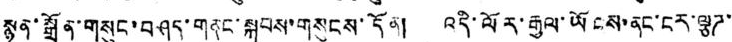སྙན་སྒྲོན་གསུང་བཤད་གནང་སྐབས་གསུངས་དོན། འདི་ལོར་རྒྱལ་ཡོངས་ནང་ངར་ལྕཌ་
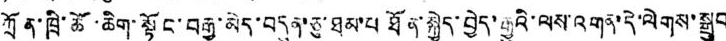ཀྲོན་ཁྲི་ཚོ་ཆིག་སྟོང་བརྒྱ་མེད་བདུན་ཅུ་ཐམ་པ ཐོན་སྐྱེད་བྱེད་རྒྱུའི་ལས་འགན་དེ་ལེགས་སྒྲུབ
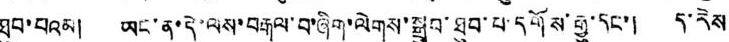ཐུབ་པའམ། ཡང་ན་དེ་ལས་བརྒལ་བ་ཞིག་ལེགས་སྒྲུབ་ཐུབ་པ་དགོས་རྒྱུ་དང་། ད་རེས
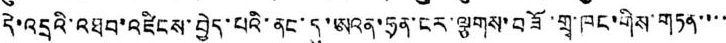དེ་འདྲའི་འཐབ་འཛིངས་བྱེད་པའི་ནང་དུ་ཨའན་ཧྲན་ངར་ལྕགས་བཟོ་གྲྭ་ཁང་གིས་གཏན་་་་
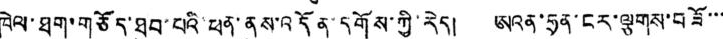ཁེལ་ཐག་གཅོད་ཐུབ་པའི་ཕན་ནུས་འདོན་དགོས་ཀྱི་རེད། ཨའན་ཧྲན་ངར་ལྕགས་བཟོ་་་
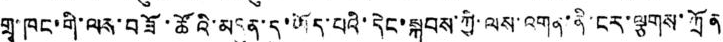གྲྭ་ཁང་གི་ལས་བཟོ་ཚོའི་མདུན་དུ་ཡོད་པའི་དེང་སྐབས་ཀྱི་ལས་འགན་ནི་ངར་ལྕགས་ཀྲོན་
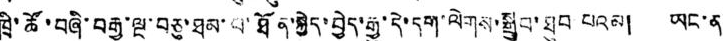ཁྲི་ཚོ་བཞི་བརྒྱ་ལྔ་བཅུ་ཐམ་པ་ཐོན་སྐྱེད་བྱེད་རྒྱུ་དེ་དག་ལེགས་སྒྲུབ་ཐུབ པའམ། ཡང་ན་
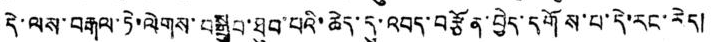དེ་ལས་བརྒལ་ཏེ་ལེགས་བསྒྲུབ་ཐུབ་པའི་ཆེད་དུ་འབད་བརྩོན་བྱེད་དགོས་པ་དེ་རང་རེད།
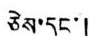ཅེས་དང་།
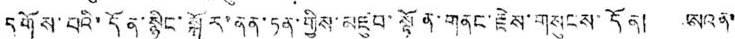དགོས་པའི་དོན་སྙིང་སྐོར་ནན་ཏན་གྱིས་མཛུབ་སྟོན་གནང་རྗེས་གསུངས་དོན། ཨའན་
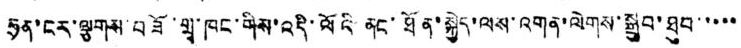ཧྲན་ངར་ལྕགས་བཟོ་གྲྭ་ཁང་གིས་འདི་ལོའི་ནང་ཐོན་སྐྱེད་ལས་འགན་ལེགས་སྒྲུབ་ཐུབ་་་་་
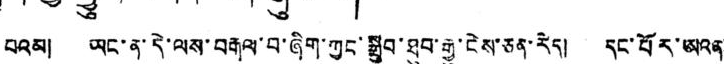པའམ། ཡང་ན་དེ་ལས་བརྒལ་བ་ཞིག་ཀྱང་སྒྲུབ་ཐུབ་རྒྱུ་ངེས་ཅན་རེད། དང་པོར་ཨའན་
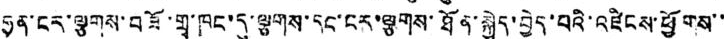ཧྲན་ངར་ལྕགས་བཟོ་གྲྭ་ཁང་དུ་ལྕགས་དང་ངར་ལྕགས་ཐོན་སྐྱེད་བྱེད་པའི་འཛིངས་ཕྱོགས་་
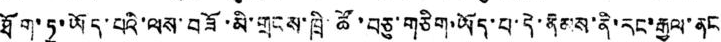ཐོག་ཏུ་ཡོད་པའི་ལས་བཟོ་མི་གྲངས་ཁྲི་ཚོ་བཅུ་གཅིག་ཡོད་པ་དེ་ནི་རྣམས་ནི་རང་རྒྱལ་ནང
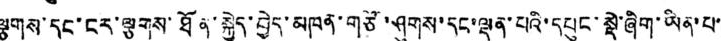ལྕགས་དང་ངར་ལྕགས་ཐོན་སྐྱེད་བྱེད་མཁན་གཙོ་ཤུགས་དང་ལྡན་པའི་དཔུང་སྡེ་ཞིག་ཡིན་པ་
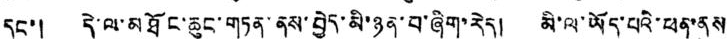དང་། དེ་ལ་མཐོང་ཆུང་གཏན་ནས་བྱེད་མི་ཉན་པ་ཞིག་རེད། མི་ལ་ཡོད་པའི་ཕན་ནུས
